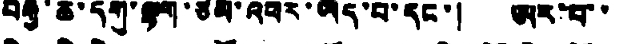བརྒྱ་ཆ་དགུ་ལྷག་ཙམ་འཕར་ཡོད་པ་དང་། ཨར་པ་་
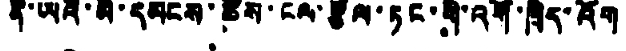ནི་ཡའི་མི་དམངས་ཚོས་ངལ་རྩོལ་ཏང་གི་འགོ་ཁྲིད་འོག
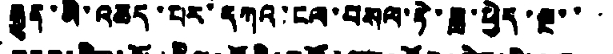རྒྱུན་མི་འཆད་པར་དཀའ་ངལ་བསལ་ཏེ་ཟླ་ཕྱེད་སྔ་་་
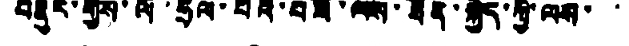བརྣུར་གྱིས་ལོ་ཧྲིལ་པོའི་བཟོ་ལས་ཐོན་སྐྱེད་ཀྱི་ལས་་
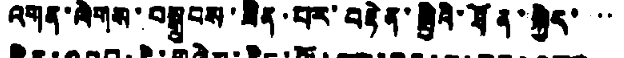འགན་ལེགས་བསྒྲུབས་ཟིན་པར་བརྟེན་སྤྱིའི་ཐོན་སྐྱེད་་་
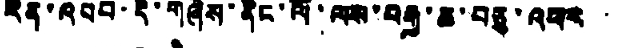རིན་འབབ་དེ་གཞེས་ནིང་ལོ་ལས་བརྒྱ་ཆ་བཅུ་འཕར་
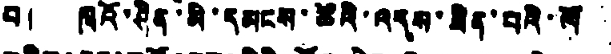བ། ཁྲའོ་ཤིན་མི་དམངས་ཚོའི་འདས་ཟིན་པའི་ལོ
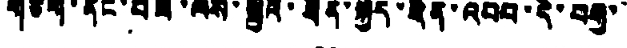གཅིག་ནང་བོ་ལས་སྤྱིའི་ཐོན་སྐྱེད་རིན་འབབ་དེ་བརྒྱ་
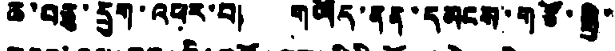ཆ་བཅུ་དྲུག་འཕར་བ། གཡོད་ནན་དམངས་གཙོ་སྤྱི་
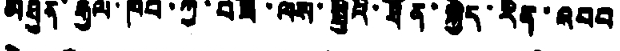མཐུན་རྒྱལ་ཁབ་ཀྱི་བཟོ་ལས་སྤྱིའི་ཐོན་སྐྱེད་རིན་འབབ
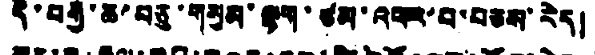དེ་བརྒྱ་ཆ་བཅུ་གསུམ་ལྷག་ཙམ་འཕར་བ་བཅས་རེད།
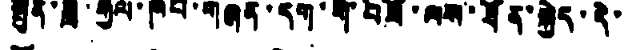སྤུན་ཟླ་རྒྱལ་ཁབ་གཞན་དག་གི་བཟོ་ལས་ཐོན་སྐྱེད་དེ་
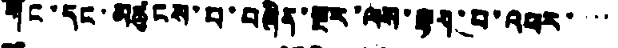གོང་དང་མཚུངས་པ་བཞིན་སྔར་ལས་ལྷག་པ་འཕར་་་་
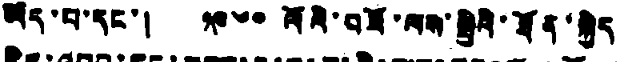ཡོད་པ་དང་། ༡༩༦༠ ལོའི་བཟོ་ལས་སྤྱིའི་ཐོན་སྐྱེད
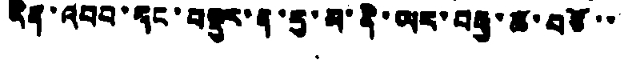རིན་འབབ་དང་བསྡུར་ན་རུ་མ་ནི་ཡར་བརྒྱ་ཆ་བཅོ་་
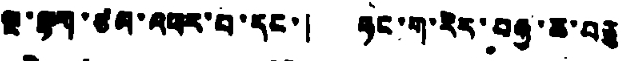སྔ་ལྷག་ཙམ་འཕར་བ་དང་། ཧང་ག་རེར་བརྒྱ་ཆ་བཅུ
